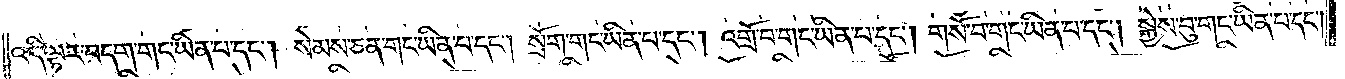འདི་ལྟར་བདག་གང་ཡིན་པ་དང༌། སེམས་ཅན་གང་ཡིན་པ་དང༌། སྲོག་གང་ཡིན་པ་དང༌། འགྲོ་བ་གང་ཡིན་པ་དང༌། གསོ་བ་གང་ཡིན་པ་དང༌། སྐྱེས་བུ་གང་ཡིན་པ་དང༌།
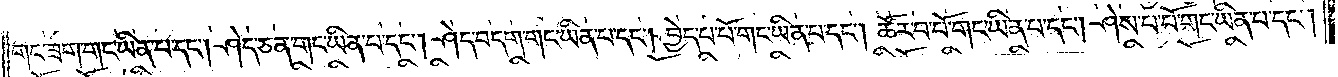གང་ཟག་གང་ཡིན་པ་དང༌། ཤེད་ཅན་གང་ཡིན་པ་དང༌། ཤེད་བདག་གང་ཡིན་པ་དང༌། བྱེད་པ་པོ་གང་ཡིན་པ་དང༌། ཚོར་བ་པོ་གང་ཡིན་པ་དང༌། ཤེས་པ་པོ་གང་ཡིན་པ་དང༌།
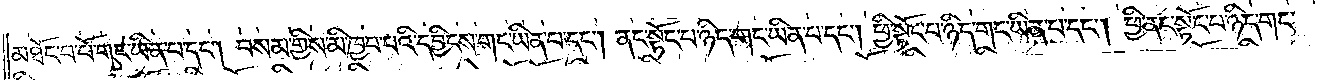མཐོང་བ་པོ་གང་ཡིན་པ་དང༌། བསམ་གྱིས་མི་ཁྱབ་པའི་དབྱིངས་གང་ཡིན་པ་དང༌། ནང་སྟོང་པ་ཉིད་གང་ཡིན་པ་དང༌། ཕྱི་སྟོང་པ་ཉིད་གང་ཡིན་པ་དང༌། ཕྱི་ནང་སྟོང་པ་ཉིད་གང་
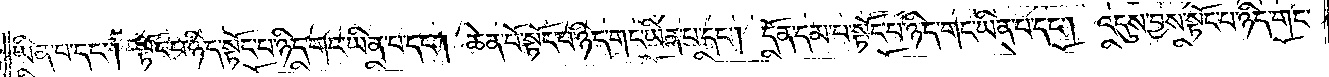ཡིན་པ་དང༌། སྟོང་པ་ཉིད་སྟོང་པ་ཉིད་གང་ཡིན་པ་དང༌། ཆེན་པོ་སྟོང་པ་ཉིད་གང་ཡིན་པ་དང༌། དོན་དམ་པ་སྟོང་པ་ཉིད་གང་ཡིན་པ་དང༌། འདུས་བྱས་སྟོང་པ་ཉིད་གང་
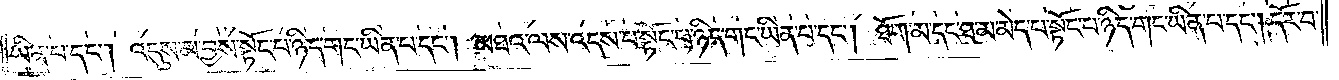ཡིན་པ་དང༌། འདུས་མ་བྱས་སྟོང་པ་ཉིད་གང་ཡིན་པ་དང༌། མཐའ་ལས་འདས་པ་སྟོང་པ་ཉིད་གང་ཡིན་པ་དང༌། ཐོག་མ་དང་ཐ་མ་མེད་པ་སྟོང་པ་ཉིད་གང་ཡིན་པ་དང༌། དོར་བ་
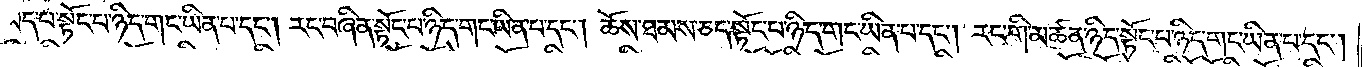མེད་པ་སྟོང་པ་ཉིད་གང་ཡིན་པ་དང༌། རང་བཞིན་སྟོང་པ་ཉིད་གང་ཡིན་པ་དང༌། ཆོས་ཐམས་ཅད་སྟོང་པ་ཉིད་གང་ཡིན་པ་དང༌། རང་གི་མཚན་ཉིད་སྟོང་པ་ཉིད་གང་ཡིན་པ་དང༌།
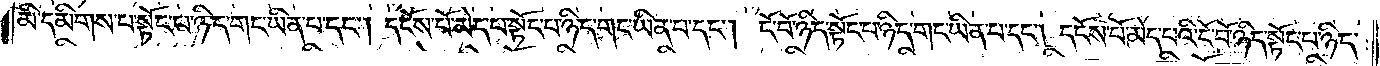མི་དམིགས་པ་སྟོང་པ་ཉིད་གང་ཡིན་པ་དང༌། དངོས་པོ་མེད་པ་སྟོང་པ་ཉིད་གང་ཡིན་པ་དང༌། ངོ་བོ་ཉིད་སྟོང་པ་ཉིད་གང་ཡིན་པ་དང༌། དངོས་པོ་མེད་པའི་ངོ་བོ་ཉིད་སྟོང་པ་ཉིད་
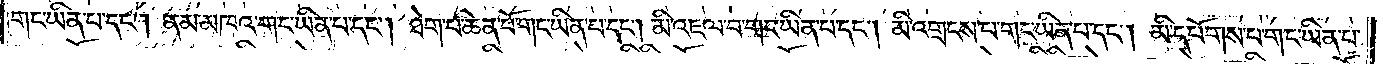གང་ཡིན་པ་དང༌། ནམ་མཁའ་གང་ཡིན་པ་དང༌། ཐེག་པ་ཆེན་པོ་གང་ཡིན་པ་དང༌། མི་འཇལ་བ་གང་ཡིན་པ་དང༌། མི་འགྲངས་པ་གང་ཡིན་པ་དང༌། མི་དཔོགས་པ་གང་ཡིན་པ་
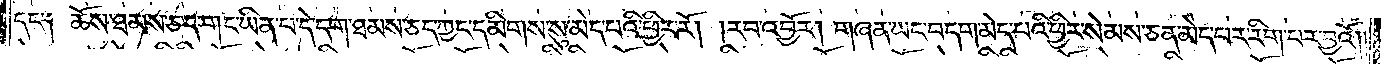དང༌། ཆོས་ཐམས་ཅད་གང་ཡིན་པ་དེ་དག་ཐམས་ཅད་ཀྱང་དམིགས་སུ་མེད་པའི་ཕྱིར་རོ། །རབ་འབྱོར། གཞན་ཡང་བདག་མེད་པའི་ཕྱིར་སེམས་ཅན་མེད་པར་རིག་པར་བྱའོ། །
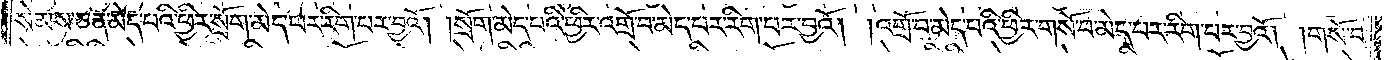སེམས་ཅན་མེད་པའི་ཕྱིར་སྲོག་མེད་པར་རིག་པར་བྱའོ། །སྲོག་མེད་པའི་ཕྱིར་འགྲོ་བ་མེད་པར་རིག་པར་བྱའོ། །འགྲོ་བ་མེད་པའི་ཕྱིར་གསོ་བ་མེད་པར་རིག་པར་བྱའོ། །གསོ་བ་
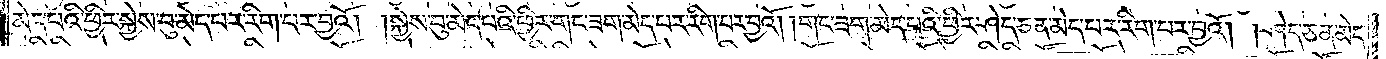མེད་པའི་ཕྱིར་སྐྱེས་བུ་མེད་པར་རིག་པར་བྱའོ། །སྐྱེས་བུ་མེད་པའི་ཕྱིར་གང་ཟག་མེད་པར་རིག་པར་བྱའོ། །གང་ཟག་མེད་པའི་ཕྱིར་ཤེད་ཅན་མེད་པར་རིག་པར་བྱའོ། །ཤེད་ཅན་མེད་
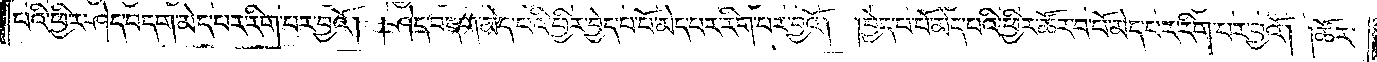པའི་ཕྱིར་ཤེད་བདག་མེད་པར་རིག་པར་བྱའོ། །ཤེད་བདག་མེད་པའི་ཕྱིར་བྱེད་པ་པོ་མེད་པར་རིག་པར་བྱའོ། །བྱེད་པ་པོ་མེད་པའི་ཕྱིར་ཚོར་བ་པོ་མེད་པར་རིག་པར་བྱའོ། །ཚོར་
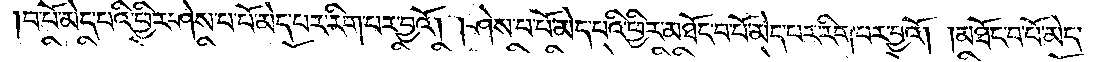བ་པོ་མེད་པའི་ཕྱིར་ཤེས་པ་པོ་མེད་པར་རིག་པར་བྱའོ། །ཤེས་པ་པོ་མེད་པའི་ཕྱིར་མཐོང་བ་པོ་མེད་པར་རིག་པར་བྱའོ། །མཐོང་བ་པོ་མེད་
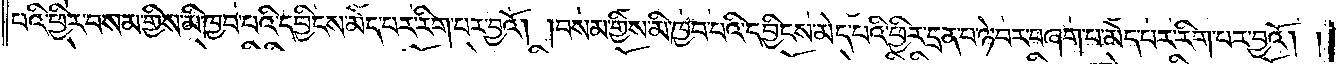པའི་ཕྱིར་བསམ་གྱིས་མི་ཁྱབ་པའི་དབྱིངས་མེད་པར་རིག་པར་བྱའོ། །བསམ་གྱིས་མི་ཁྱབ་པའི་དབྱིངས་མེད་པའི་ཕྱིར་དྲན་པ་ཉེ་བར་བཞག་པ་མེད་པར་རིག་པར་བྱའོ། །
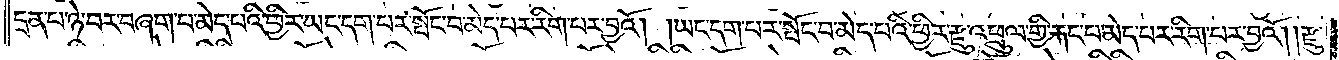དྲན་པ་ཉེ་བར་བཞག་པ་མེད་པའི་ཕྱིར་ཡང་དག་པར་སྤོང་བ་མེད་པར་རིག་པར་བྱའོ། །ཡང་དག་པར་སྤོང་བ་མེད་པའི་ཕྱིར་རྫུ་འཕྲུལ་གྱི་རྐང་བ་མེད་པར་རིག་པར་བྱའོ། །རྫུ་
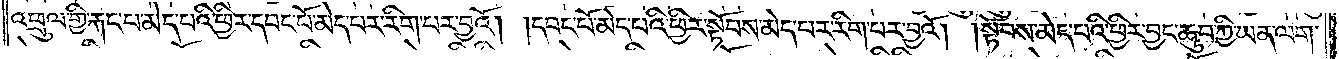འཕྲུལ་གྱི་རྐང་པ་མེད་པའི་ཕྱིར་དབང་པོ་མེད་པར་རིག་པར་བྱའོ། །དབང་པོ་མེད་པའི་ཕྱིར་སྟོབས་མེད་པར་རིག་པར་བྱའོ། །སྟོབས་མེད་པའི་ཕྱིར་བྱང་ཆུབ་ཀྱི་ཡན་ལག་
